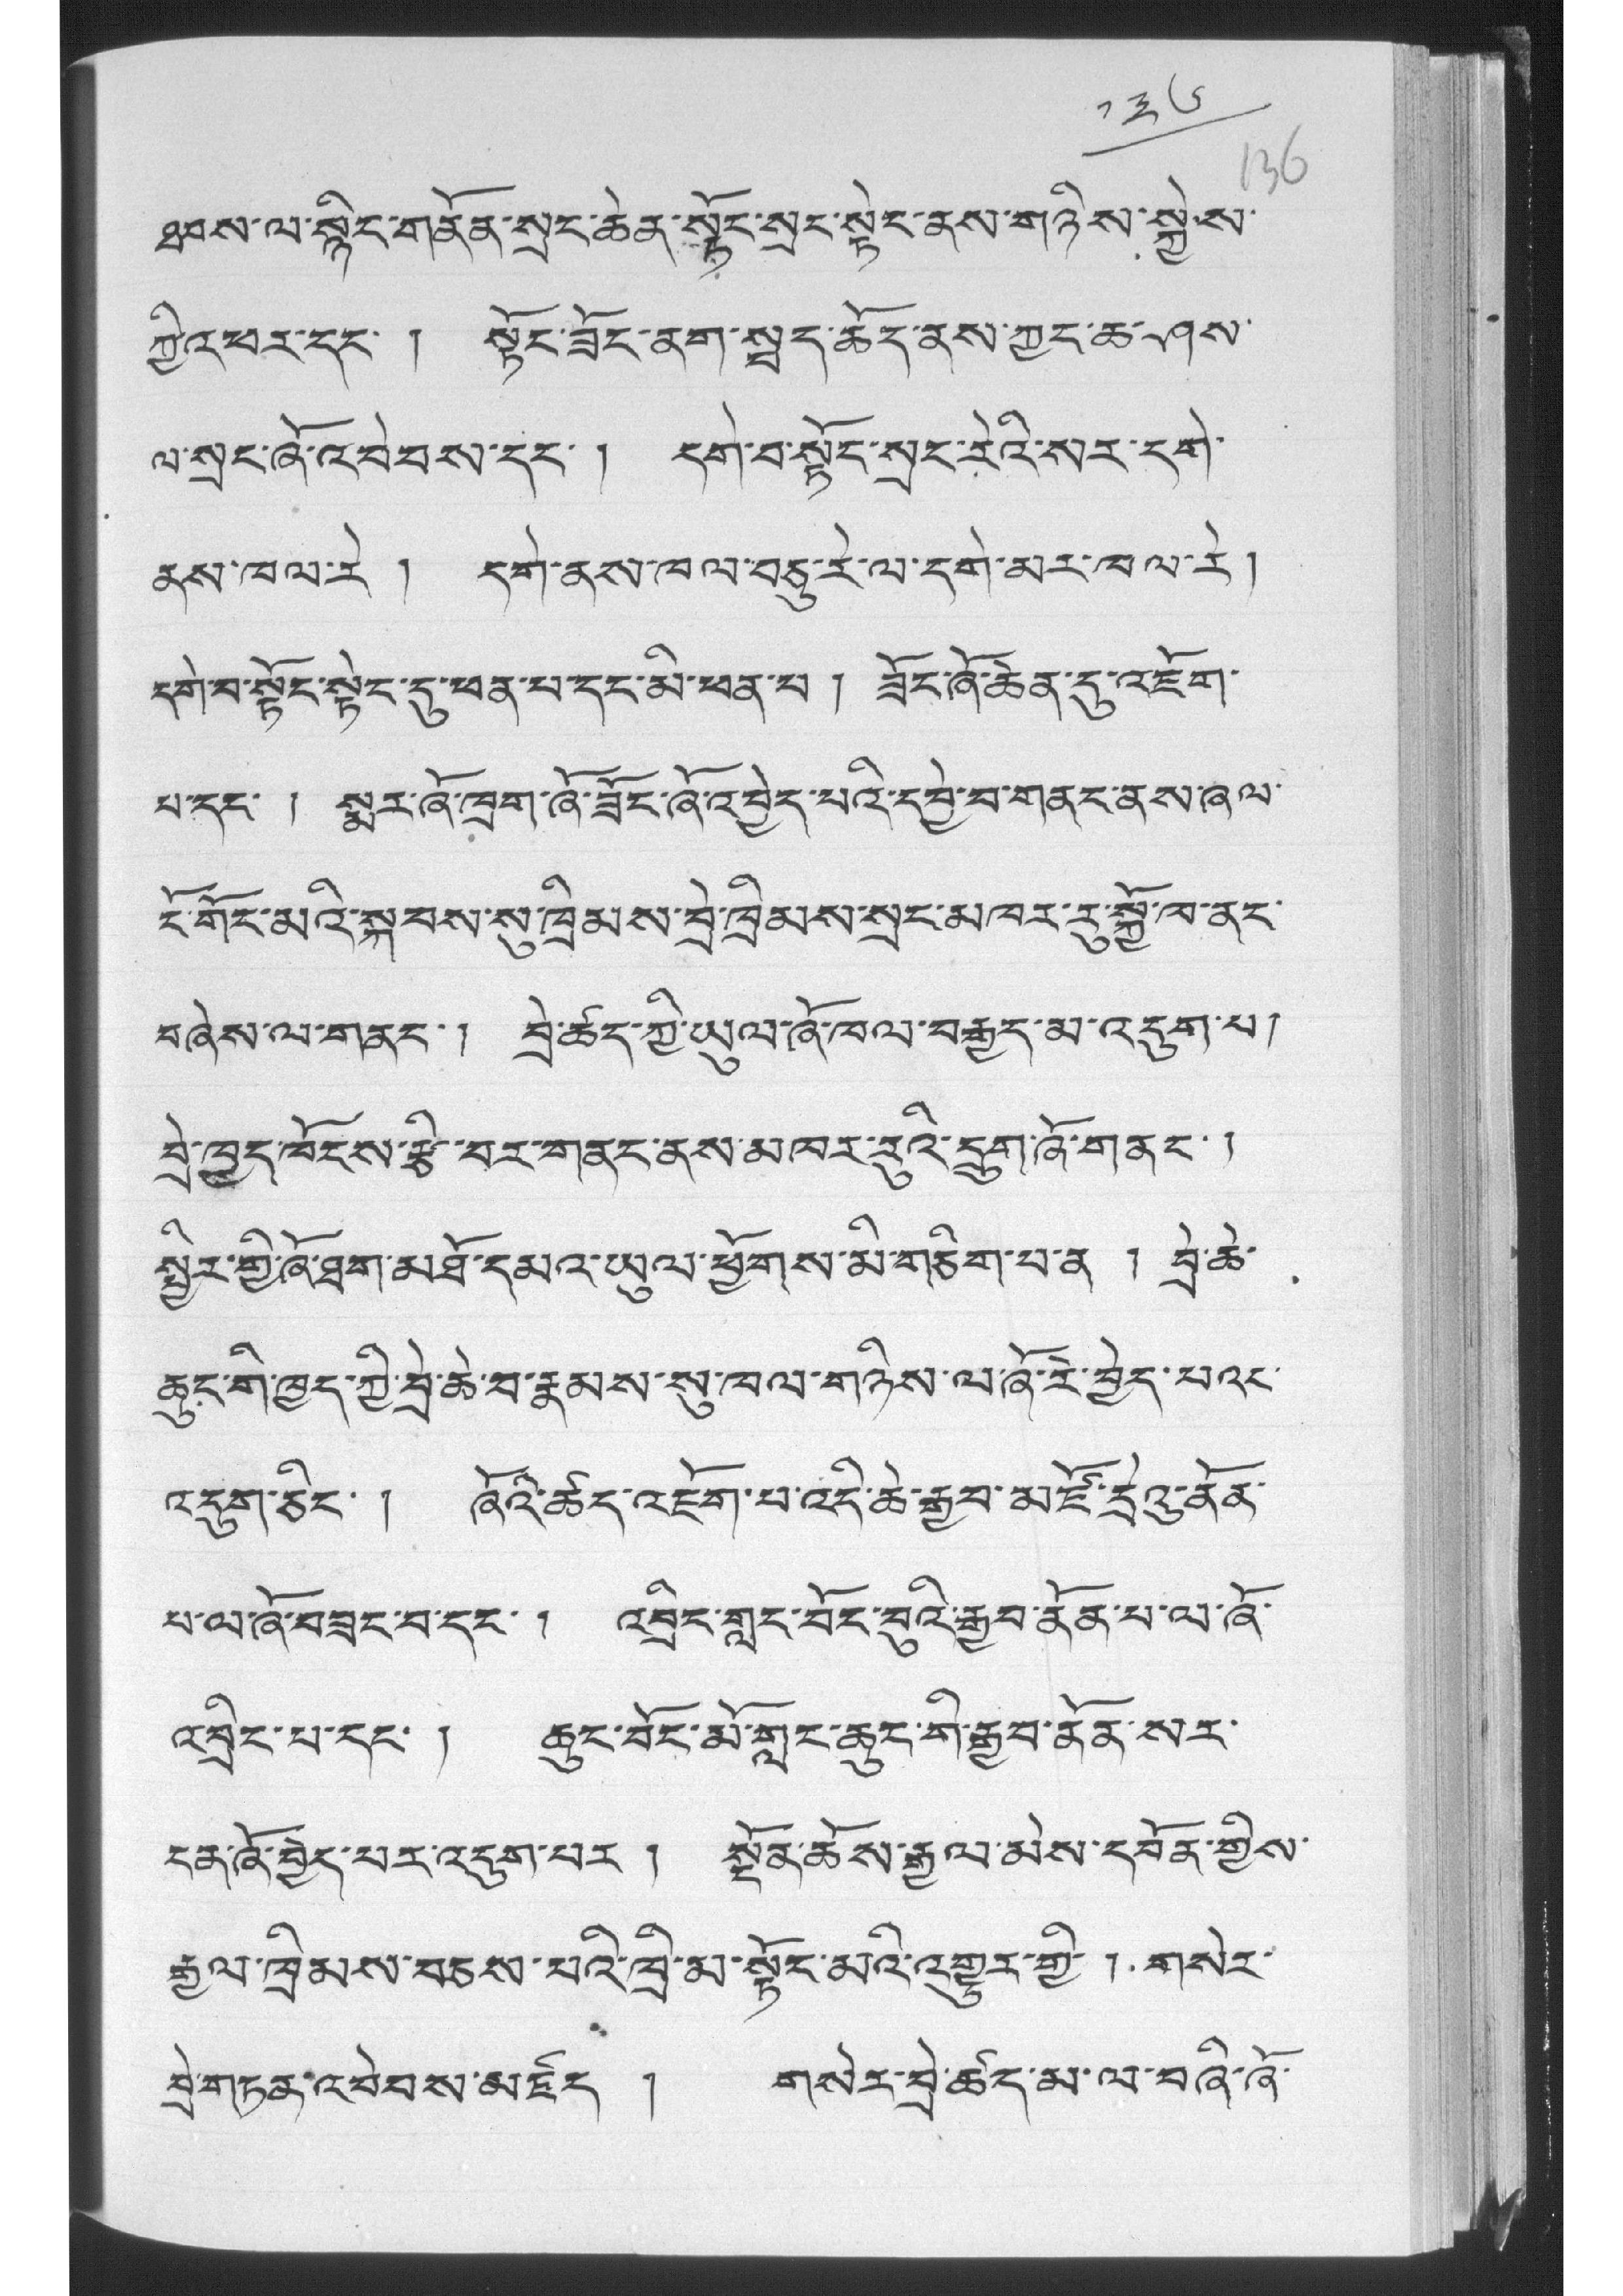༡༣༦
ཐབས་ལ་སྙིང་གནོན་སྲང་ཆེན་སྟོང་སྲང་སྟེང་ནས་གཉིས་སྐྱེ་ས་
ཀྱི་འཕར་དང་ ། སྟོང་ཟོང་ནག་སྦད་ཆོད་ནས་ཀྱང་ཆ་ཤས་
ལ་སྲང་ཞོ་འབེབས་དང་། དགེ་བ་སྟོང་སྲང་རེའི་སར་དགེ་
ནས་ཁལ་རེ ། དགེ་ནས་ཁལ་བཅུ་རེ་ལ་དགེ་མར་ཁལ་རེ།
དགེ་བ་སྟོང་སྟེང་དུ་ཕན་པ་དང་མི་ཕན་པ ། ཟོང་ཞོ་ཆེན་དུ་འཇོག་
པ་དང་ ། སྨར་ཞོ་ཁྲག་ཞོ་ཟོང་ཞོ་འབྱེད་པའི་དབྱེ་བ་གནང་ནས་ཞལ་
ངོ་གོང་མའི་སྐབས་སུ་ཁྲིམས་བྲེ་ཁྲིམས་སྲང་མཁར་རུ་སྐྱོ་ཁ་ནང་
བཞེས་ལ་གནང་། བྲེ་ཚད་ཀྱི་ཡུལ་ཞོ་ཁལ་བརྒྱད་མ་འདུག་པ།
བྲེ་ཁྱད་ཁོངས་རྩི་བར་གནང་ནས་མཁར་རུའི་དྲུག་ཞོ་གནང་།
སྤྱིར་གྱི་ཞོ་ཐག་མཐོ་དམའ་ཡུལ་ཕྱོགས་མི་གཅིག་པ་ན ། བྲེ་ཆེ་
ཆུང་གི་ཁྱད་ཀྱི་བྲེ་ཆེ་བ་རྣམས་སུ་ཁལ་གཉིས་ལ་ཞོ་རེ་བྱེད་པའང་
འདུག་ཅིང་། ཞོའི་ཚད་འཇོག་པ་འདི་ཆེ་རྒྱབ་མཛོ་དྲེའུ་ནོན་
པ་ལ་ཞོ་བཟང་བ་དང་། འབྲིང་གླང་བོང་བུའི་རྒྱབ་ནོན་པ་ལ་ཞོ་
འབྲིང་པ་དང་། ཆུང་བོང་མོ་གླང་ཆུང་གི་རྒྱབ་ནོན་སར་
ངན་ཞོ་བྱེད་པར་འདུག་པར ། སྔོན་ཆོས་རྒྱལ་མེས་དབོན་གྱིས་
རྒྱལ་ཁྲིམས་བཅས་པའི་ཁྲི་མ་སྟོང་མའི་འགྱུར་གྱི་ ། གསེར་
བྲེ་གཏན་འབེབས་མཛད ། གསེར་བྲེ་ཚད་མ་ལ་བཞི་ཞོ་
